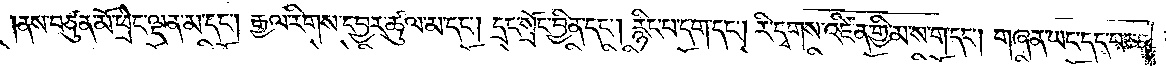ནས་བཙུན་མོ་ཕྲེང་ལྡན་མ་དང༌། རྒྱལ་རིགས་དབྱར་ཚུལ་མ་དང༌། དྲང་སྲོང་བྱིན་དང༌། རྙིང་པ་དག་དང༌། རི་དྭགས་འཛིན་གྱི་མ་ས་ག་དང༌། གཞན་ཡང་དད་པ་ཅན་
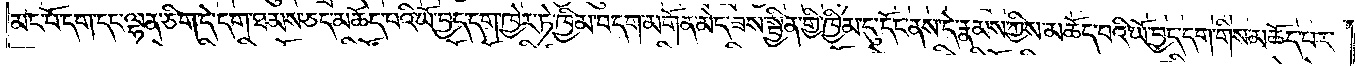མང་པོ་དག་དང་ལྷན་ཅིག་དེ་དག་ཐམས་ཅད་མཆོད་པའི་ཡོ་བྱད་དག་ཁྱེར་ཏེ་ཁྱིམ་བདག་མགོན་མེད་ཟས་སྦྱིན་གྱི་ཁྱིམ་དུ་དོང་ནས་དེ་རྣམས་ཀྱིས་མཆོད་པའི་ཡོ་བྱད་དག་གིས་མཆོད་པར་
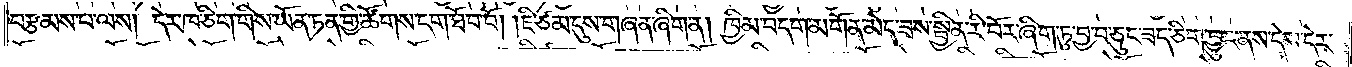བརྩམས་པ་ལས། དེར་ཁ་ཅིག་གིས་ཡོན་ཏན་གྱི་ཚོགས་དག་ཐོབ་བོ། །ཇི་ཙམ་དུས་གཞན་ཞིག་ན། ཁྱིམ་བདག་མགོན་མེད་ཟས་སྦྱིན་རི་བོར་ཞིག་ཏུ་བྱ་བ་ཅུང་ཟད་ཅིག་བྱུང་ནས་དེས་དེར་
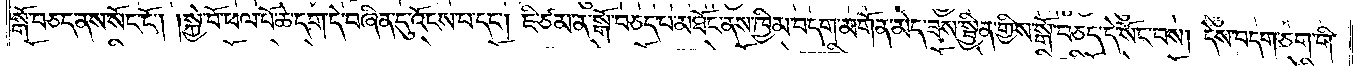སྒོ་བཅད་ནས་སོང་ངོ༌། །སྐྱེ་བོ་ཕལ་པོ་ཆེ་དག་དེ་བཞིན་དུ་འོངས་པ་དང༌། ཇི་ཙམ་ན་སྒོ་བཅད་པ་མཐོང་ནས་ཁྱིམ་བདག་མགོན་མེད་ཟས་སྦྱིན་གྱིས་སྒོ་བཅད་དེ་སོང་བས། དེས་བདག་ཅག་གི་
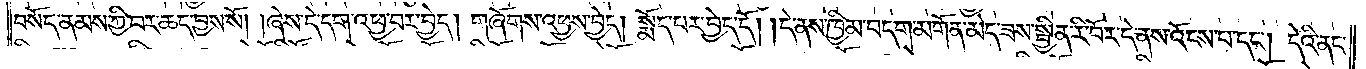བསོད་ནམས་ཀྱི་བར་ཆད་བྱས་སོ། །ཞེས་དེ་དག་འཕྱ་བར་བྱེད། གཞོགས་འཕྱས་བྱེད། སྨོད་པར་བྱེད་དོ། །དེ་ནས་ཁྱིམ་བདག་མགོན་མེད་ཟས་སྦྱིན་རི་བོར་དེ་ནས་འོངས་པ་དང༌། དེའི་ནང་
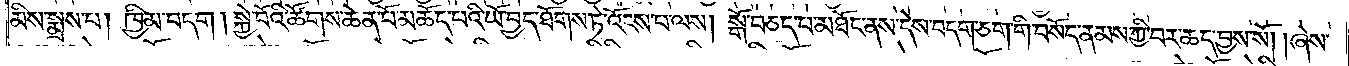མིས་སྨྲས་པ། ཁྱིམ་བདག །སྐྱེ་བོའི་ཚོགས་ཆེན་པོ་མཆོད་པའི་ཡོ་བྱད་ཐོགས་ཏེ་འོངས་པ་ལས། སྒོ་བཅད་པ་མཐོང་ནས་དེས་བདག་ཅག་གི་བསོད་ནམས་ཀྱི་བར་ཆད་བྱས་སོ། །ཞེས་
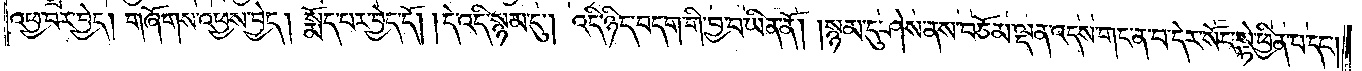འཕྱ་བར་བྱེད། གཞོགས་འཕྱས་བྱེད། སྨོད་པར་བྱེད་དོ། །དེ་འདི་སྙམ་དུ། འདི་ཉིད་བདག་གི་བྱ་བ་ཡིན་ནོ། །སྙམ་དུ་ཤེས་ནས་བཅོམ་ལྡན་འདས་གང་ན་བ་དེར་སོང་སྟེ་ཕྱིན་པ་དང༌།
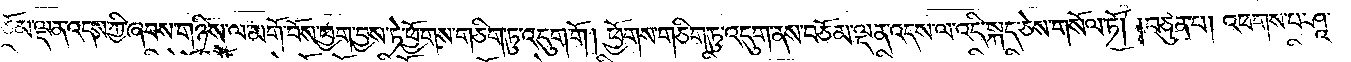བཅོམ་ལྡན་འདས་ཀྱི་ཞབས་གཉིས་ལ་མགོ་བོས་ཕྱག་བྱས་ཏེ་ཕྱོགས་གཅིག་ཏུ་འདུག་གོ། ཕྱོགས་གཅིག་ཏུ་འདུག་ནས་བཅོམ་ལྡན་འདས་ལ་འདི་སྐད་ཅེས་གསོལ་ཏོ། །བཙུན་པ། འཕགས་པ་ཤཱ་
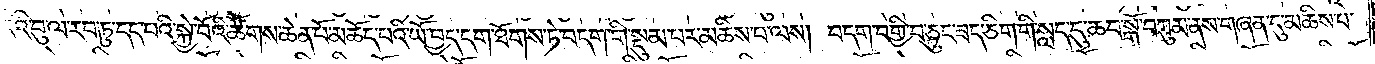རིའི་བུ་ལ་རབ་ཏུ་དད་པའི་སྐྱེ་བོའི་ཚོགས་ཆེན་པོ་མཆོད་པའི་ཡོ་བྱད་དག་ཐོགས་ཏེ་བདག་གི་སྡུམ་པར་མཆིས་པ་ལས། བདག་བགྱི་བ་ཅུང་ཟད་ཅིག་གི་སླད་དུ་ཆབ་སྒོ་བཀུམ་ནས་གཞན་དུ་མཆིས་པ་
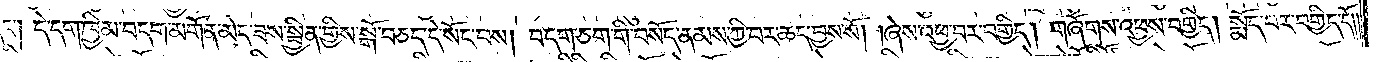དང༌། དེ་དག་ཁྱིམ་བདག་མགོན་མེད་ཟས་སྦྱིན་གྱིས་སྒོ་བཅད་དེ་སོང་བས། བདག་ཅག་གི་བསོད་ནམས་ཀྱི་བར་ཆད་བྱས་སོ། །ཞེས་འཕྱ་བར་བགྱིད། གཞོགས་འཕྱས་བགྱིད། སྨོད་པར་བགྱིད་དོ༎
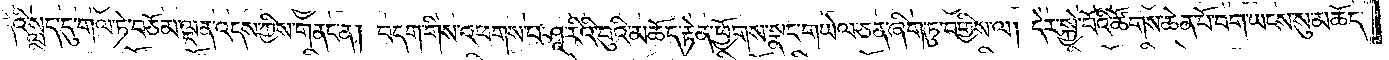དེའི་སླད་དུ་གལ་ཏེ་བཅོམ་ལྡན་འདས་ཀྱིས་གནང་ན། བདག་གིས་འཕགས་པ་ཤཱ་རིའི་བུའི་མཆོད་རྟེན་ཕྱོགས་སྣང་གཡེལ་ཅན་ཞིག་ཏུ་བགྱིས་ལ། དེར་སྐྱེ་བོའི་ཚོགས་ཆེན་པོ་བག་ཡངས་སུ་མཆོད་
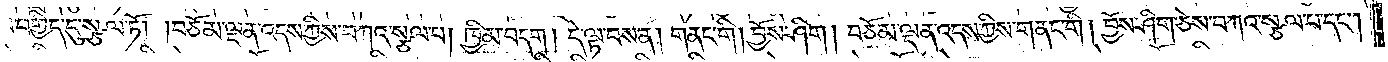པ་བགྱིད་དུ་སྩལ་ཏོ། །བཅོམ་ལྡན་འདས་ཀྱིས་བཀའ་སྩལ་པ། ཁྱིམ་བདག། དེ་ལྟ་བས་ན། གནང་གི། བྱོས་ཤིག། བཅོམ་ལྡན་འདས་ཀྱིས་གནང་གི། བྱོས་ཤིག་ཅེས་བཀའ་སྩལ་པ་དང༌།
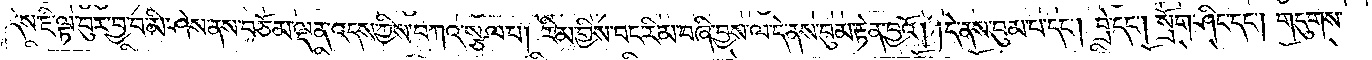དེས་ཇི་ལྟ་བུར་བྱ་བ་མི་ཤེས་ནས་བཅོམ་ལྡན་འདས་ཀྱིས་བཀའ་སྩལ་པ། རིམ་གྱིས་བང་རིམ་བཞི་བྱས་ལ་དེ་ནས་བུམ་རྟེན་བྱའོ། །དེ་ནས་བུམ་པ་དང༌། བྲེ་དང༌། སྲོག་ཤིང་དང༌། གདུགས་
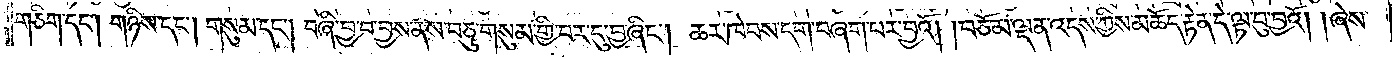གཅིག་དང༌། གཉིས་དང༌། གསུམ་དང༌། བཞི་བྱ་བ་བྱས་ནས་བཅུ་གསུམ་གྱི་བར་དུ་བྱ་ཞིང༌། ཆར་ཁེབས་དག་བཞག་པར་བྱའོ། །བཅོམ་ལྡན་འདས་ཀྱིས་མཆོད་རྟེན་དེ་ལྟ་བུ་བྱའོ། །ཞེས་
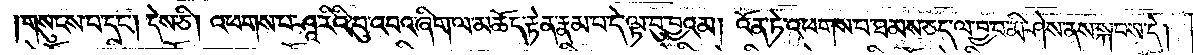གསུངས་པ་དང༌། དེས་ཅི། འཕགས་པ་ཤཱ་རིའི་བུ་འབའ་ཞིག་ལ་མཆོད་རྟེན་རྣམ་པ་དེ་ལྟ་བུ་བྱའམ། འོན་ཏེ་འཕགས་པ་ཐམས་ཅད་ལ་བྱ་བ་མི་ཤེས་ནས་སྐབས་དེ།
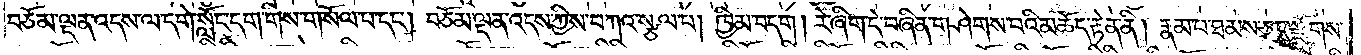བཅོམ་ལྡན་འདས་ལ་དགེ་སློང་དག་གིས་གསོལ་བ་དང༌། བཅོམ་ལྡན་འདས་ཀྱིས་བཀའ་སྩལ་པ། ཁྱིམ་བདག། རེ་ཞིག་དེ་བཞིན་གཤེགས་པའི་མཆོད་རྟེན་ནི། རྣམ་པ་ཐམས་ཅད་རྫོགས་
